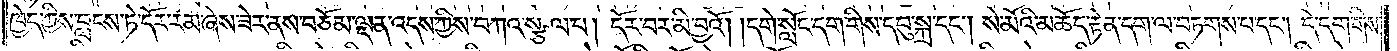ཁྱེད་ཀྱིས་བླངས་ཏེ་དོར་རམ་ཞེས་ཟེར་ནས་བཅོམ་ལྡན་འདས་ཀྱིས་བཀའ་སྩལ་པ། དོར་བར་མི་བྱའོ། །དགེ་སློང་དག་གིས་དབུ་སྐྲ་དང༌། སེ་མོའི་མཆོད་རྟེན་དག་ལ་བཏགས་པ་དང༌། དེ་དག་གིས་
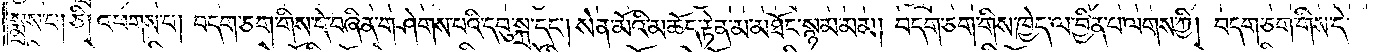སྨྲས་པ། ཅི། འཕགས་པ། བདག་ཅག་གིས་དེ་བཞིན་གཤེགས་པའི་དབུ་སྐྲ་དང༌། སེན་མོའི་མཆོད་རྟེན་མ་མཐོང་སྙམ་མམ། བདག་ཅག་གིས་ཁྱེད་ལ་བྱིན་པ་ལགས་ཀྱི། བདག་ཅག་གིས་དེ་
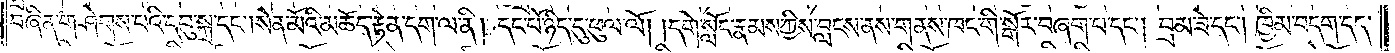བཞིན་གཤེགས་པའི་དབུ་སྐྲ་དང༌། སེན་མོའི་མཆོད་རྟེན་དག་ལ་ནི། དང་པོ་ཉིད་དུ་ཕུལ་ལོ། །དགེ་སློང་རྣམས་ཀྱིས་བླངས་ནས་གནས་ཁང་གི་སྒོར་བཞག་པ་དང༌། བྲམ་ཟེ་དང༌། ཁྱིམ་བདག་དད་
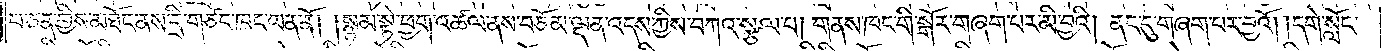པ་ཅན་གྱིས་མཐོང་ནས་དྲི་གཙང་ཁང་ཡན་ནོ། །སྙམ་སྟེ་ཕྱག་འཚལ་ནས་བཅོམ་ལྡན་འདས་ཀྱིས་བཀའ་སྩལ་པ། གནས་ཁང་གི་སྒོར་གཞག་པར་མི་བྱའི། ནང་དུ་གཞག་པར་བྱའོ། །དགེ་སློང་
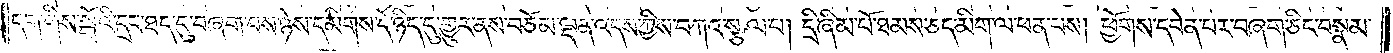དག་གིས་སྒོའི་དྲང་ཐད་དུ་བཞག་པས་ཉེས་དམིགས་དེ་ཉིད་དུ་གྱུར་ནས་བཅོམ་ལྡན་འདས་ཀྱིས་བཀའ་སྩལ་པ། དྲི་ཞིམ་པོ་ཐམས་ཅད་མིག་ལ་ཕན་པས། ཕྱོགས་དབེན་པར་བཞག་ཅིང་བསྣམ་
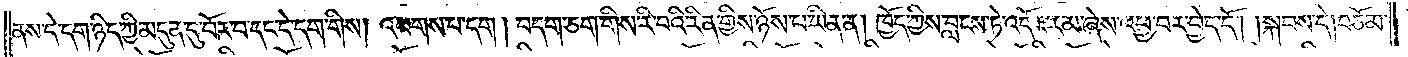ནས་དེ་དག་ཉིད་ཀྱི་མདུན་དུ་བོར་བ་དང་དེ་དག་གིས། འཕགས་པ་དག །བདག་ཅག་གིས་རི་བའི་རིན་གྱིས་ཉོས་པ་ཡིན་ན། ཁྱོད་ཀྱིས་བླངས་ཏེ་འདོར་རམ་ཞེས་འཕྱ་བར་བྱེད་དོ། །སྐབས་དེ། བཅོམ་
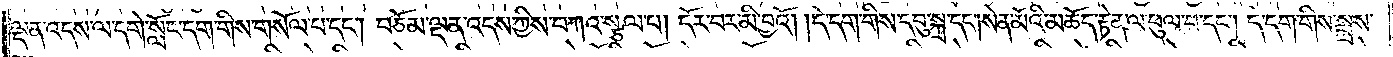ལྡན་འདས་ལ་དགེ་སློང་དག་གིས་གསོལ་པ་དང༌། བཅོམ་ལྡན་འདས་ཀྱིས་བཀའ་སྩལ་པ། དོར་བར་མི་བྱའོ། །དེ་དག་གིས་དབུ་སྐྲ་དང༌། སེན་མོའི་མཆོད་རྟེན་ལ་ཕུལ་བ་དང༌། དེ་དག་གིས་སྨྲས་
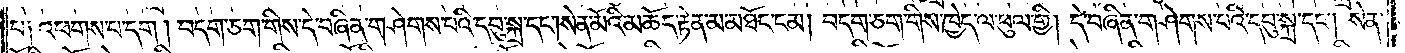པ༑ འཕགས་པ་དག ། བདག་ཅག་གིས་དེ་བཞིན་གཤེགས་པའི་དབུ་སྐྲ་དང༌། སེན་མོའི་མཆོད་རྟེན་མ་མཐོང་ངམ། བདག་ཅག་གིས་ཁྱེད་ལ་ཕུལ་གྱི། དེ་བཞིན་གཤེགས་པའི་དབུ་སྐྲ་དང༌། སེན་
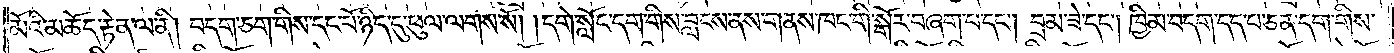མོའི་མཆོད་རྟེན་ལ་ནི། བདག་ཅག་གིས་དང་པོ་ཉིད་དུ་ཕུལ་ལགས་སོ། །དགེ་སློང་དག་གིས་བླངས་ནས་གནས་ཁང་གི་སྒོར་བཞག་པ་དང༌། བྲམ་ཟེ་དང༌། ཁྱིམ་བདག་དད་པ་ཅན་དག་གིས་
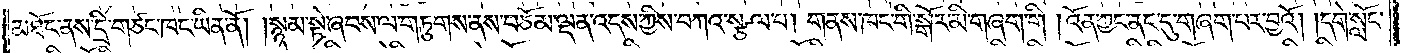མཐོང་ནས་དྲི་གཙང་ཁང་ཡིན་ནོ། །སྙམ་སྟེ་ཞབས་ལ་གཏུགས་ནས་བཅོམ་ལྡན་འདས་ཀྱིས་བཀའ་སྩལ་པ། གནས་ཁང་གི་སྒོར་མི་གཞག་གི །འོན་ཀྱང་ནང་དུ་གཞག་པར་བྱའོ། །དགེ་སློང་
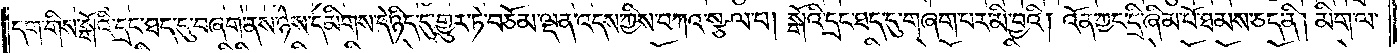དག་གིས་སྒོའི་དྲང་ཐད་དུ་བཞག་ནས་ཉེས་དམིགས་དེ་ཉིད་དུ་གྱུར་ཏེ་བཅོམ་ལྡན་འདས་ཀྱིས་བཀའ་སྩལ་པ། སྒོའི་དྲང་ཐད་དུ་གཞག་པར་མི་བྱའི། འོན་ཀྱང་དྲི་ཞིམ་པོ་ཐམས་ཅད་ནི། མིག་ལ་
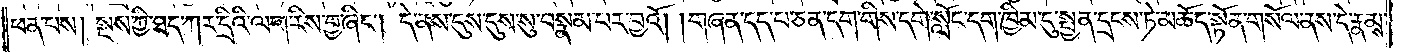ཕན་པས། སྔས་ཀྱི་ཐད་ཀར་དྲིའི་ལག་རིས་བྱ་ཞིང༌། དེ་ནས་དུས་དུས་སུ་བསྣམ་པར་བྱའོ། །གཞན་དད་པ་ཅན་དག་གིས་དགེ་སློང་དག་ཁྱིམ་དུ་སྤྱན་དྲངས་ཏེ་མཆོད་སྟོན་གསོལ་ནས་དེ་རྣམས་
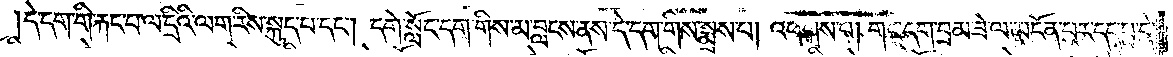དེ་དག་གི་རྐང་པ་ལ་དྲིའི་ལག་རིས་སྐུད་པ་དང༌། དགེ་སློང་དག་གིས་མ་བླངས་ནས་དེ་དག་གིས་སྨྲས་པ། འཕགས་པ། གང་དག་བྲམ་ཟེ་ལ་མངོན་པར་དད་པ་དེ་
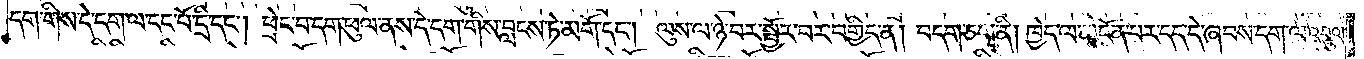དག་གིས་དེ་དག་ལ་དང་པོ་དྲི་དང༌། ཕྲེང་བ་དག་ཕུལ་ནས་དེ་དག་གིས་བླངས་ཏེ་མགོ་དང༌། ལུས་ལ་ཉེ་བར་སྦྱོར་བར་བགྱིད་ན། བདག་ཅག་ནི། ཁྱེད་ལ་མངོན་པར་དད་དེ་ཞབས་དག་ལ་འབུལ་
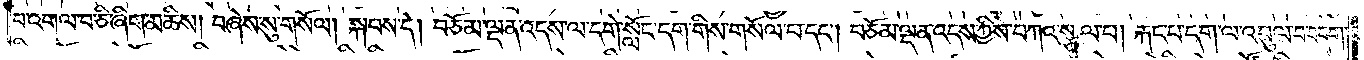བ་འགལ་བ་ཅི་ཞིག་མཆིས། བཞེས་སུ་གསོལ། སྐབས་དེ། བཅོམ་ལྡན་འདས་ལ་དགེ་སློང་དག་གིས་གསོལ་པ་དང༌། བཅོམ་ལྡན་འདས་ཀྱིས་བཀའ་སྩལ་པ། རྐང་པ་དག་ལ་འབུལ་བ་བདག་
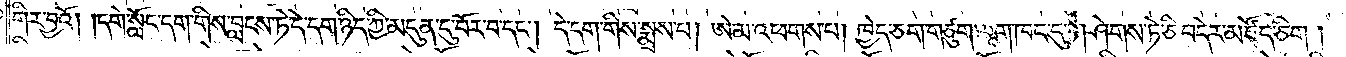གིར་བྱའོ། །དགེ་སློང་དག་གིས་བླངས་ཏེ་དེ་དག་ཉིད་ཀྱི་མདུན་དུ་བོར་བ་དང༌། དེ་དག་གིས་སྨྲས་པ། ཨེ་མ་འཕགས་པ། ཁྱེད་ཅག་གཙུག་ལག་ཁང་དུ་གཤེགས་ཏེ་ཅི་བདེར་མཛོད་ཅིག །
